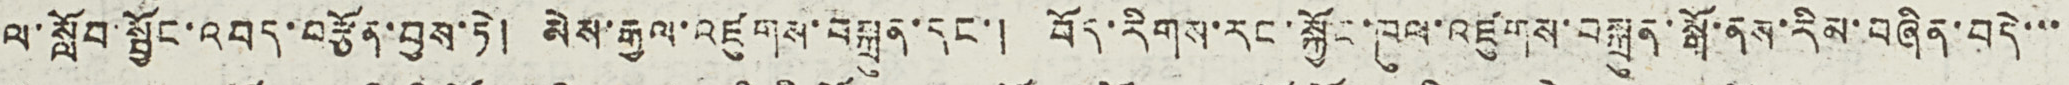ལ་སློབ་སྦྱོང་འབད་བརྩོན་བྱས་ཏེ། མེས་རྒྱལ་འཛུགས་བསྐྲུན་དང་། བོད་རིགས་རང་སྐྱོང་ཁུལ་འཛུགས་བསྐྲུན་སྒོ་ནས་རིམ་བཞིན་བདེ་་་
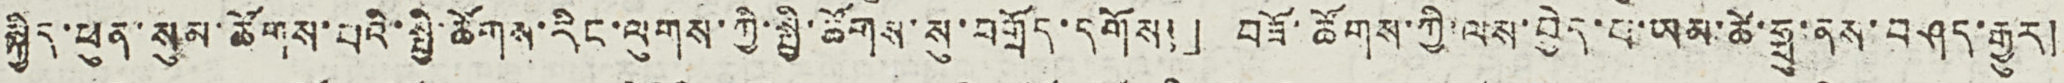སྐྱིད་ཕུན་སུམ་ཚོགས་པའི་སྤྱི་ཚོགས་རིང་ལུགས་ཀྱི་སྤྱི་ཚོགས་སུ་བགྲོད་དགོས།」 བཟོ་ཚོགས་ཀྱི་ལས་བྱེད་པ་ཡམ་ཚེ་ཧྥུ་ནས་བཤད་རྒྱུར།
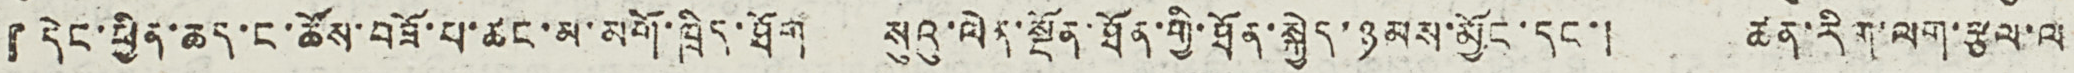『དེང་ཕྱིན་ཆད་ང་ཚོས་བཟོ་པ་ཚང་མ་མགོ་ཁྲིད་ཐོག སུའུ་ལེན་སྔོན་ཐོན་གྱི་ཐོན་སྐྱེད་ཉམས་མྱོང་དང་། ཚན་རིག་ལག་རྩལ་ལ
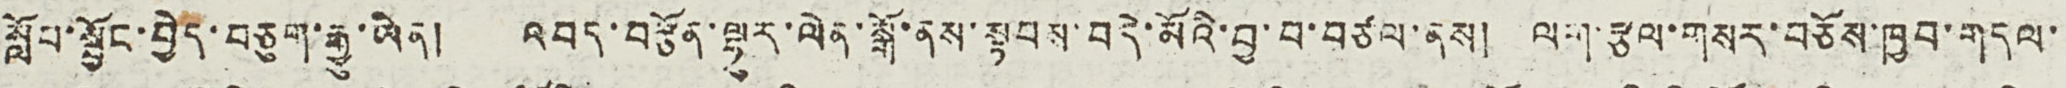སློབ་སྦྱོང་བྱེད་བཅུག་རྒྱུ་ཡིན། འབད་བརྩོན་ལྷུར་ལེན་སྒོ་ནས་སྟབས་བདེ་མོའི་བྱ་བ་བཙལ་ནས། ལག་རྩལ་གསར་བཅོས་ཁྱབ་གདལ་
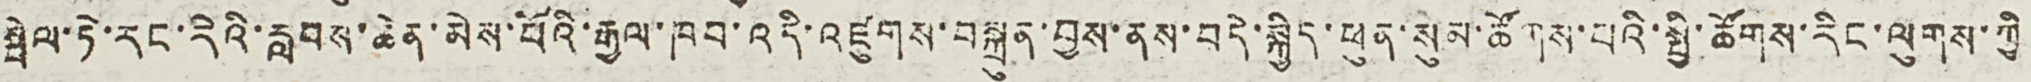སྦེལ་ཏེ་རང་རེའི་རླབས་ཆེན་མེས་པོའི་རྒྱལ་ཁབ་འདི་འཛུགས་བསྐྲུན་བྱས་ནས་བདེ་སྐྱིད་ཕུན་སུམ་ཚོགས་པའི་སྤྱི་ཚོགས་རིང་ལུགས་ཀྱི
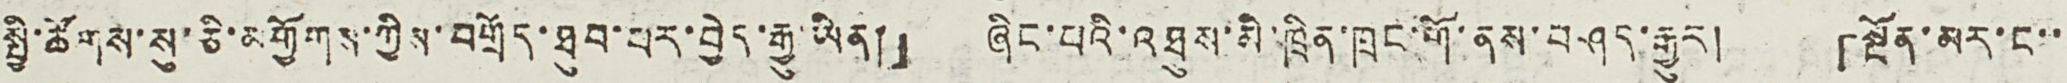སྤྱི་ཚོགས་སུ་ཅི་མགྱོགས་ཀྱིས་བགྲོད་ཐུབ་པར་བྱེད་རྒྱུ་ཡིན།』 ཞིང་པའི་འཐུས་མི་ཁྲིན་ཁྲང་གོ་ནས་བཤད་རྒྱུར། 『སྔོན་མར་ང་་
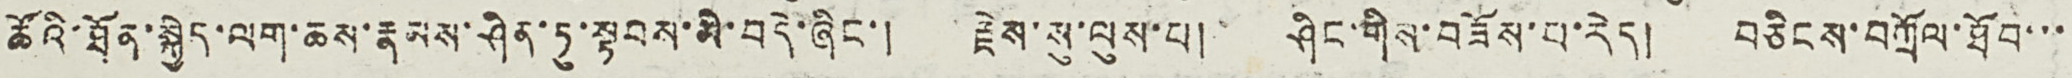ཚོའི་ཐོན་སྐྱེད་ལག་ཆས་རྣམས་ཤིན་ཏུ་སྟབས་མི་བདེ་ཞིང་། རྗེས་སུ་ལུས་པ། ཤིང་གིས་བཟོས་པ་རེད། བཅིངས་བཀྲོལ་ཐོབ་་་
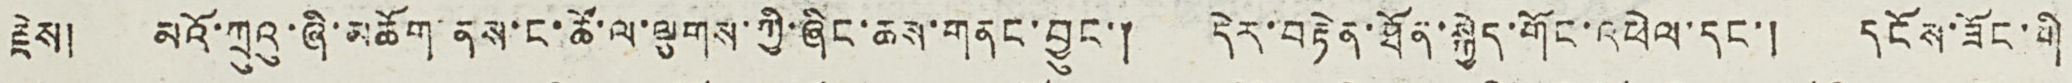རྗེས། མའོ་ཀྲུའུ་ཞི་མཆོག་ནས་ང་ཚོ་ལ་ལྕགས་ཀྱི་ཞིང་ཆས་གནང་བྱུང་། དེར་བརྟེན་ཐོན་སྐྱེད་གོང་འཕེལ་དང་། དངོས་ཟོང་གི་
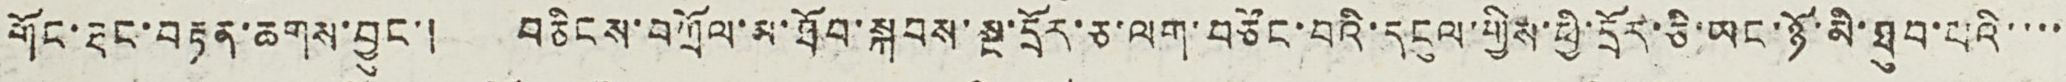གོང་ཐང་བརྟན་ཆགས་བྱུང་། བཅིངས་བཀྲོལ་མ་ཐོབ་སྐབས་སྔ་དྲོར་ཅ་ལག་བཙོང་བའི་དངུལ་གྱིས་ཕྱི་དྲོར་ཅི་ཡང་ཉོ་མི་ཐུབ་པའི་་་་
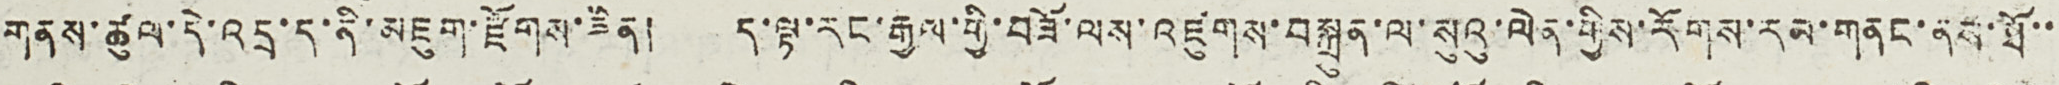གནས་ཚུལ་དེ་འདྲ་ད་ནི་མཇུག་རྫོགས་ཟིན། ད་ལྟ་རང་རྒྱལ་གྱི་བཟོ་ལས་འཛུགས་བསྐྲུན་ལ་སུའུ་ལེན་གྱིས་རོགས་རམ་གནང་ནས་ཐོ་་
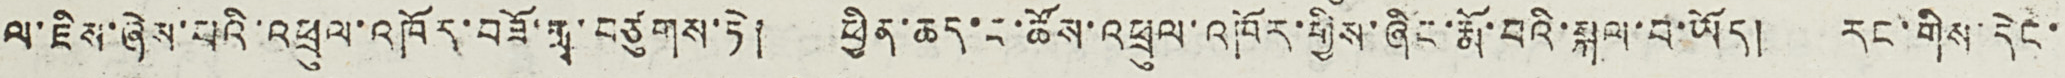ལ་ཇིས་ཞེས་པའི་འཕྲུལ་འཁོར་བཟོ་གྲྭ་བཙུགས་ཏེ། ཕྱིན་ཆད་ང་ཚོས་འཕྲུལ་འཁོར་གྱིས་ཞིང་རྨོ་བའི་སྐལ་བ་ཡོད། རང་གིས་དེང་
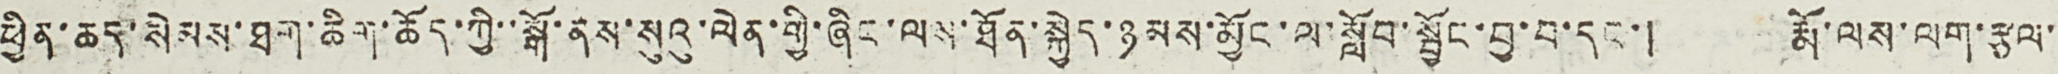ཕྱིན་ཆད་སེམས་ཐག་ཆིག་ཆོད་ཀྱི་་སྒོ་ནས་སུའུ་ལེན་གྱི་ཞིང་ལས་ཐོན་སྐྱེད་ཉམས་མྱོང་ལ་སློབ་སྦྱོང་བྱ་བ་དང་། རྨོ་ལས་ལག་རྩལ་
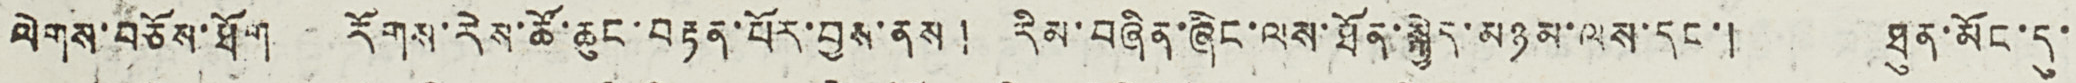ལེགས་བཅོས་ཐོག རོགས་རེས་ཚོ་ཆུང་བརྟན་པོར་བྱས་ནས། རིམ་བཞིན་ཞིང་ལས་ཐོན་སྐྱེད་མཉམ་ལས་དང་། ཐུན་མོང་དུ་
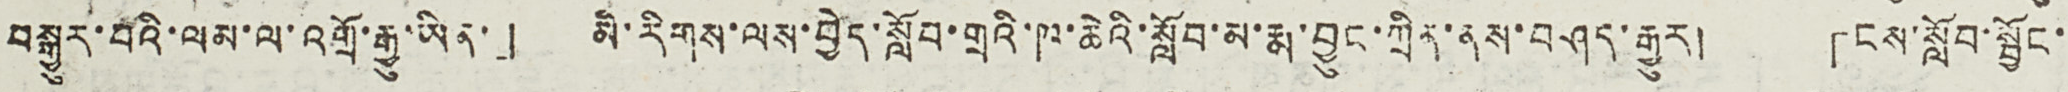བསྒྱུར་བའི་ལམ་ལ་འགྲོ་རྒྱུ་ཡིན་」 མི་རིགས་ལས་བྱེད་སློབ་གྲའི་ཁ་ཆེའི་སློབ་མ་རྨ་བྱུང་ཀྲིན་ནས་བཤད་རྒྱུར། 「ངས་སློབ་སྦྱོང་
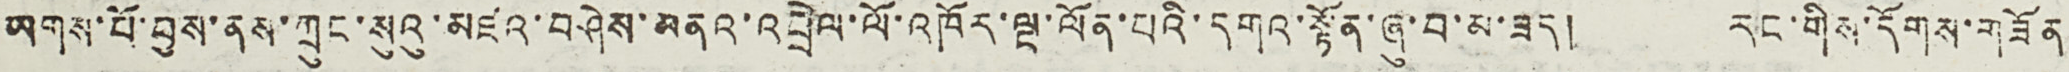ཡགས་པོ་བྱས་ནས་ཀྲུང་སུའུ་མཛའ་བཤེས་མནའ་འབྲེལ་ལོ་འཁོར་ལྔ་ལོན་པའི་དགའ་སྟོན་ཞུ་བ་མ་ཟད། རང་གིས་དོགས་གཟོན
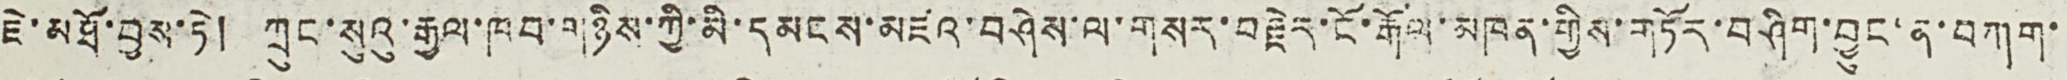ཇེ་མཐོ་བྱས་ཏེ། ཀྲུང་སུའུ་རྒྱལ་ཁབ་གཉིས་ཀྱི་མི་དམངས་མཛའ་བཤེས་ལ་གསར་བརྗེར་ངོ་རྒོལ་མཁན་གྱིས་གཏོར་བཤིག་བྱུང་ན་བཀག་
